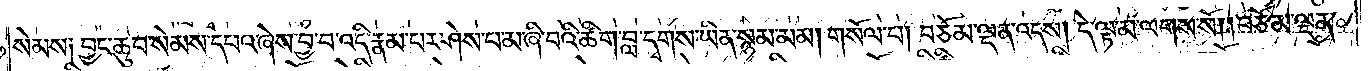སེམས༑ བྱང་ཆུབ་སེམས་དཔའ་ཞེས་བྱ་བ་འདི་རྣམ་པར་ཤེས་པ་མ་ཞི་བའི་ཚིག་བླ་དྭགས་ཡིན་སྙམ་མམ། གསོལ་པ། བཅོམ་ལྡན་འདས། དེ་ལྟ་མ་ལགས་སོ། །བཅོམ་ལྡན་
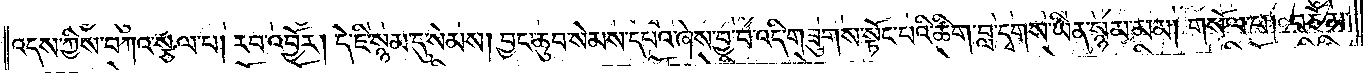འདས་ཀྱིས་བཀའ་སྩལ་པ། རབ་འབྱོར། དེ་ཇི་སྙམ་དུ་སེམས། བྱང་ཆུབ་སེམས་དཔའ་ཞེས་བྱ་བ་འདི་གཟུགས་སྟོང་པའི་ཚིག་བླ་དྭགས་ཡིན་སྙམ་མམ། གསོལ་པ། བཅོམ་
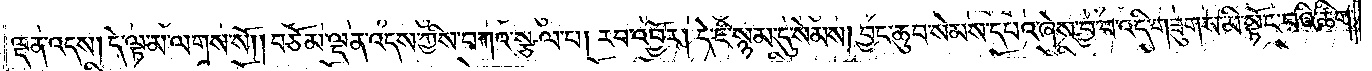ལྡན་འདས། དེ་ལྟ་མ་ལགས་སོ། །བཅོམ་ལྡན་འདས་ཀྱིས་བཀའ་སྩལ་པ། རབ་འབྱོར། དེ་ཇི་སྙམ་དུ་སེམས། བྱང་ཆུབ་སེམས་དཔའ་ཞེས་བྱ་བ་འདི་གཟུགས་མི་སྟོང་པའི་ཚིག་
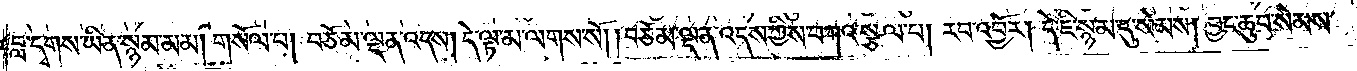བླ་དྭགས་ཡིན་སྙམ་མམ། གསོལ་པ། བཅོམ་ལྡན་འདས། དེ་ལྟ་མ་ལགས་སོ། །བཅོམ་ལྡན་འདས་ཀྱིས་བཀའ་སྩལ་པ། རབ་འབྱོར། དེ་ཇི་སྙམ་དུ་སེམས༑ བྱང་ཆུབ་སེམས་
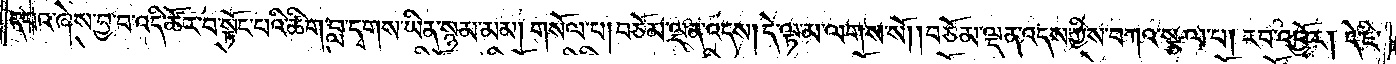དཔའ་ཞེས་བྱ་བ་འདི་ཚོར་བ་སྟོང་པའི་ཚིག་བླ་དྭགས་ཡིན་སྙམ་མམ། གསོལ་པ། བཅོམ་ལྡན་འདས། དེ་ལྟ་མ་ལགས་སོ། །བཅོམ་ལྡན་འདས་ཀྱིས་བཀའ་སྩལ་པ། རབ་འབྱོར། དེ་ཇི་
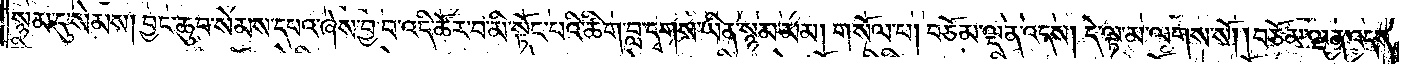སྙམ་དུ་སེམས། བྱང་ཆུབ་སེམས་དཔའ་ཞེས་བྱ་བ་འདི་ཚོར་བ་མི་སྟོང་པའི་ཚིག་བླ་དྭགས་ཡིན་སྙམ་མམ། གསོལ་པ། བཅོམ་ལྡན་འདས། དེ་ལྟ་མ་ལགས་སོ། །བཅོམ་ལྡན་འདས་
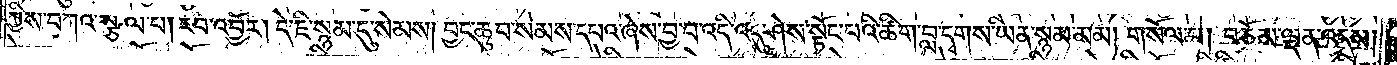ཀྱིས་བཀའ་སྩལ་པ། རབ་འབྱོར། དེ་ཇི་སྙམ་དུ་སེམས། བྱང་ཆུབ་སེམས་དཔའ་ཞེས་བྱ་བ་འདི་འདུ་ཤེས་སྟོང་པའི་ཚིག་བླ་དྭགས་ཡིན་སྙམ་མམ། གསོལ་པ། བཅོམ་ལྡན་འདས།
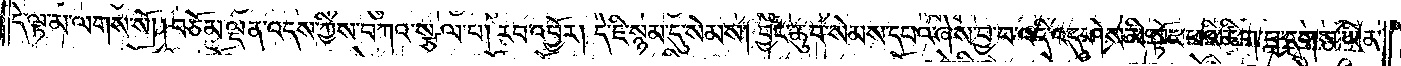དེ་ལྟ་མ་ལགས་སོ། །བཅོམ་ལྡན་འདས་ཀྱིས་བཀའ་སྩལ་པ། རབ་འབྱོར། དེ་ཇི་སྙམ་དུ་སེམས། བྱང་ཆུབ་སེམས་དཔའ་ཞེས་བྱ་བ་འདི་འདུ་ཤེས་མི་སྟོང་པའི་ཚིག་བླ་དྭགས་ཡིན་
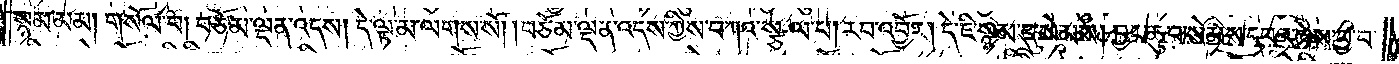སྙམ་མམ། གསོལ་པ། བཅོམ་ལྡན་འདས། དེ་ལྟ་མ་ལགས་སོ། །བཅོམ་ལྡན་འདས་ཀྱིས་བཀའ་སྩལ་པ། རབ་འབྱོར། དེ་ཇི་སྙམ་དུ་སེམས། བྱང་ཆུབ་སེམས་དཔའ་ཞེས་བྱ་བ་
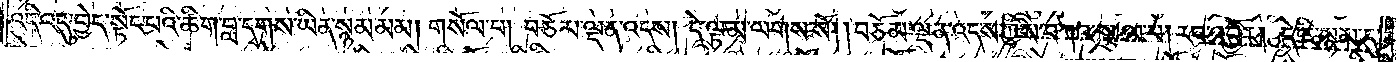འདི་འདུ་བྱེད་སྟོང་པའི་ཚིག་བླ་དྭགས་ཡིན་སྙམ་མམ། གསོལ་པ། བཅོམ་ལྡན་འདས། དེ་ལྟ་མ་ལགས་སོ། །བཅོམ་ལྡན་འདས་ཀྱིས་བཀའ་སྩལ་པ། རབ་འབྱོར། དེ་ཇི་སྙམ་དུ་
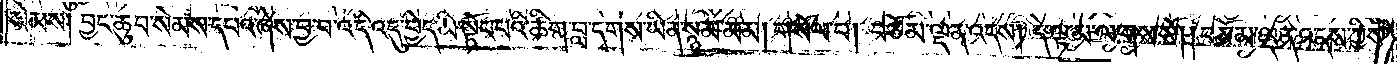སེམས། བྱང་ཆུབ་སེམས་དཔའ་ཞེས་བྱ་བ་འདི་འདུ་བྱེད་མི་སྟོང་པའི་ཚིག་བླ་དྭགས་ཡིན་སྙམ་མམ། གསོལ་པ། བཅོམ་ལྡན་འདས། དེ་ལྟ་མ་ལགས་སོ། །བཅོམ་ལྡན་འདས་ཀྱིས་
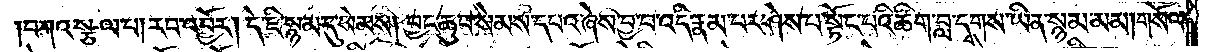བཀའ་སྩལ་པ། རབ་འབྱོར། དེ་ཇི་སྙམ་དུ་སེམས། བྱང་ཆུབ་སེམས་དཔའ་ཞེས་བྱ་བ་འདི་རྣམ་པར་ཤེས་པ་སྟོང་པའི་ཚིག་བླ་དྭགས་ཡིན་སྙམ་མམ། གསོལ་
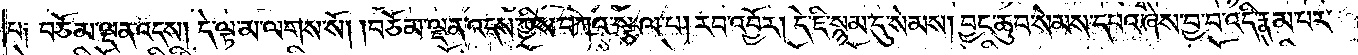པ༑ བཅོམ་ལྡན་འདས། དེ་ལྟ་མ་ལགས་སོ། །བཅོམ་ལྡན་འདས་ཀྱིས་བཀའ་སྩལ་པ། རབ་འབྱོར། དེ་ཇི་སྙམ་དུ་སེམས། བྱང་ཆུབ་སེམས་དཔའ་ཞེས་བྱ་བ་འདི་རྣམ་པར་
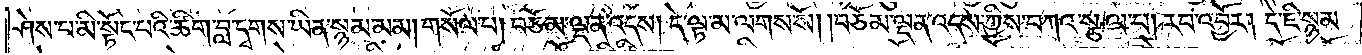ཤེས་པ་མི་སྟོང་པའི་ཚིག་བླ་དྭགས་ཡིན་སྙམ་མམ། གསོལ་པ། བཅོམ་ལྡན་འདས། དེ་ལྟ་མ་ལགས་སོ། །བཅོམ་ལྡན་འདས་ཀྱིས་བཀའ་སྩལ་པ། རབ་འབྱོར། དེ་ཇི་སྙམ་
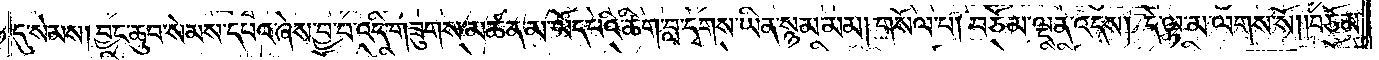དུ་སེམས། བྱང་ཆུབ་སེམས་དཔའ་ཞེས་བྱ་བ་འདི་གཟུགས་མཚན་མ་ཡོད་པའི་ཚིག་བླ་དྭགས་ཡིན་སྙམ་མམ། གསོལ་པ། བཅོམ་ལྡན་འདས། དེ་ལྟ་མ་ལགས་སོ། །བཅོམ་
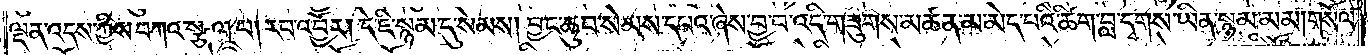ལྡན་འདས་ཀྱིས་བཀའ་སྩལ་པ། རབ་འབྱོར། དེ་ཇི་སྙམ་དུ་སེམས། བྱང་ཆུབ་སེམས་དཔའ་ཞེས་བྱ་བ་འདི་གཟུགས་མཚན་མ་མེད་པའི་ཚིག་བླ་དྭགས་ཡིན་སྙམ་མམ། གསོལ་
